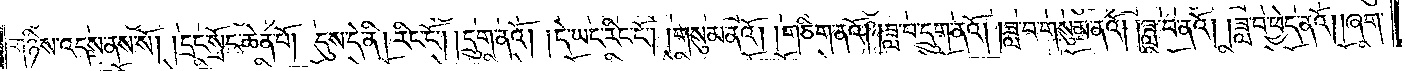གཉིས་འདས་ནས་སོ། །དྲང་སྲོང་ཆེན་པོ། དུས་དེ་ནི། རིང་ངོ༌། །དྲུག་ནའོ། །དེ་ཡང་རིང་ངོ༌། །གསུམ་ནའོ། །གཅིག་ནའོ། །ཟླ་བ་དྲུག་ནའོ། །ཟླ་བ་གསུམ་ནའོ། །ཟླ་བ་ནའོ། །ཟླ་བ་ཕྱེད་ནའོ། །ཞག་
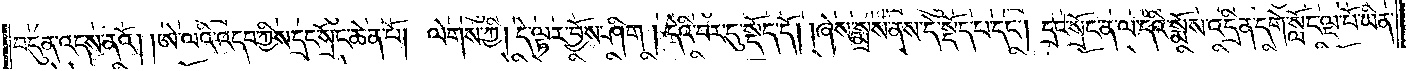བདུན་འདས་ནའོ། །ཨེ་ལའི་འདབ་ཀྱིས་དྲང་སྲོང་ཆེན་པོ། ལེགས་ཀྱི། དེ་ལྟར་བྱོས་ཤིག། དེའི་བར་དུ་སྡོད་དོ། །ཞེས་སྨྲས་ནས་དེ་སྡོད་པ་དང༌། དྲང་སྲོང་ན་ལ་དའི་སྨོས་འདྲིན་དགེ་སློང་ལྔ་པོ་ཡིན་
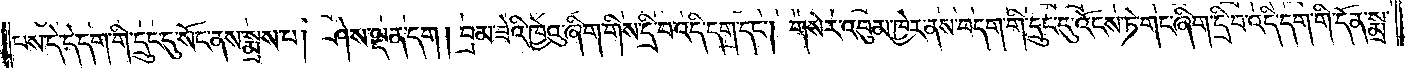པས་དེ་དེ་དག་གི་དྲུང་དུ་སོང་ནས་སྨྲས་པ། ཤེས་ལྡན་དག། བྲམ་ཟེའི་ཁྱེའུ་ཞིག་གིས་དྲི་བ་འདི་དག་དང༌། གསེར་འབུམ་ཁྱེར་ནས་བདག་གི་དྲུང་དུ་འོངས་ཏེ་གང་ཞིག་དྲི་བ་འདི་དག་གི་དོན་སྨྲ་
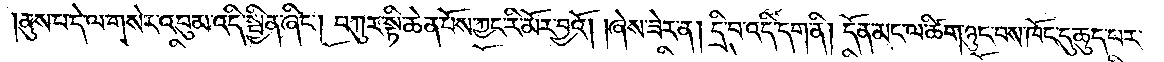།ནུས་པ་དེ་ལ་གསེར་འབུམ་འདི་སྦྱིན་ཞིང༌། བཀུར་སྟི་ཆེན་པོས་ཀྱང་རི་མོར་བྱའོ། །ཞེས་ཟེར་ན། དྲི་བ་འདི་དག་ནི། དོན་མང་ལ་ཚིག་ཉུང་བས་ཁོང་དུ་ཆུད་པར་
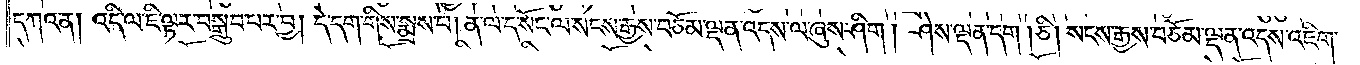དཀའ་ན། འདི་ལ་ཇི་ལྟར་བསྒྲུབ་པར་བྱ། དེ་དག་གིས་སྨྲས་པ། ན་ལ་ད་སོང་ལ་སངས་རྒྱས་བཅོམ་ལྡན་འདས་ལ་ཞུས་ཤིག། ཤེས་ལྡན་དག། ཅི། སངས་རྒྱས་བཅོམ་ལྡན་འདས་འཇིག་
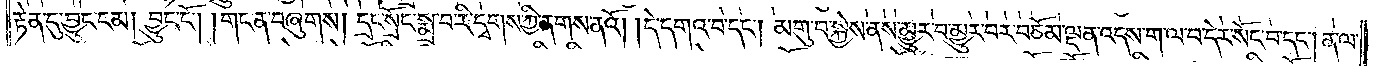རྟེན་དུ་བྱུང་ངམ། བྱུང་ངོ༌། །གང་ན་བཞུགས། དྲང་སྲོང་སྨྲ་བ་རི་དྭགས་ཀྱི་ནགས་ནའོ། །དེ་དགའ་བ་དང༌། མགུ་བ་སྐྱེས་ནས་མྱུར་བ་མྱུར་བར་བཅོམ་ལྡན་འདས་ག་ལ་བ་དེར་སོང་བ་དང༌། ན་ལ་
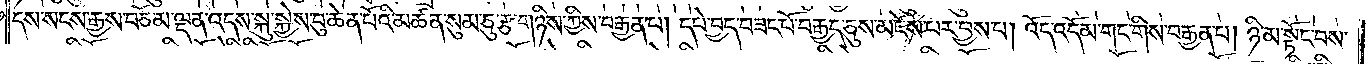དས་སངས་རྒྱས་བཅོམ་ལྡན་འདས་སྐུ་སྐྱེས་བུ་ཆེན་པོའི་མཚན་སུམ་ཅུ་རྩ་གཉིས་ཀྱིས་བརྒྱན་པ། དཔེ་བྱད་བཟང་པོ་བརྒྱད་ཅུས་མཛེས་པར་བྱས་པ། འོད་འདོམ་གང་གིས་བརྒྱན་པ། ཉི་མ་སྟོང་བས་
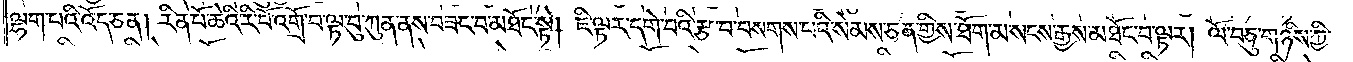ལྷག་པའི་འོད་ཅན། རིན་པོ་ཆེའི་རི་བོ་འགྲོ་བ་ལྟ་བུ་ཀུན་ནས་བཟང་བ་མཐོང་སྟེ། ཇི་ལྟར་དགེ་བའི་རྩ་བ་བསགས་པའི་སེམས་ཅན་གྱིས་ཐོག་མ་སངས་རྒྱས་མཐོང་བ་ལྟར། ལོ་བཅུ་གཉིས་ཀྱི་
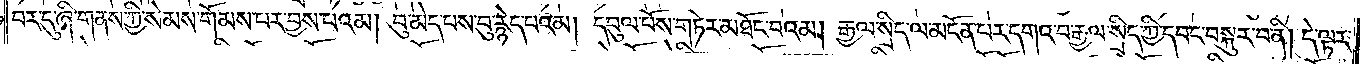བར་དུ་ཞི་གནས་ཀྱི་སེམས་གོམས་པར་བྱས་པའམ། བུ་མེད་པས་བུ་རྙེད་པའམ། དབུལ་པོས་གཏེར་མཐོང་བའམ། རྒྱལ་སྲིད་ལ་མངོན་པར་དགའ་བ་རྒྱལ་སྲིད་ཀྱི་དབང་བསྐུར་བ་ནི། དེ་ལྟར་
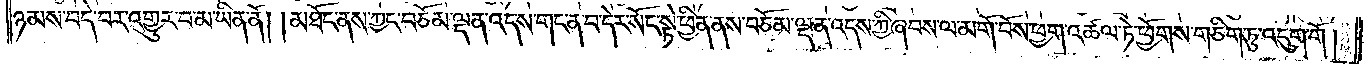ཉམས་བདེ་བར་འགྱུར་བ་མ་ཡིན་ནོ། །མཐོང་ནས་ཀྱང་བཅོམ་ལྡན་འདས་གང་ན་བ་དེར་སོང་སྟེ་ཕྱིན་ནས་བཅོམ་ལྡན་འདས་ཀྱི་ཞབས་ལ་མགོ་བོས་ཕྱག་འཚལ་ཏེ་ཕྱོགས་གཅིག་ཏུ་འདུག་གོ།
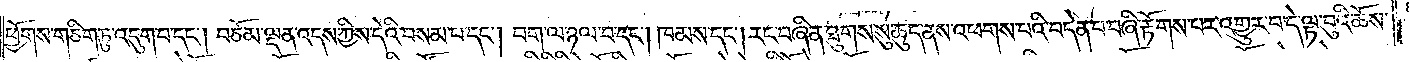ཕྱོགས་གཅིག་ཏུ་འདུག་པ་དང༌། བཅོམ་ལྡན་འདས་ཀྱིས་དེའི་བསམ་པ་དང༌། བག་ལ་ཉལ་བ་དང༌། ཁམས་དང༌། རང་བཞིན་ཐུགས་སུ་ཆུད་ནས་འཕགས་པའི་བདེན་པ་བཞི་རྟོགས་པར་འགྱུར་བ་དེ་ལྟ་བུའི་ཆོས་
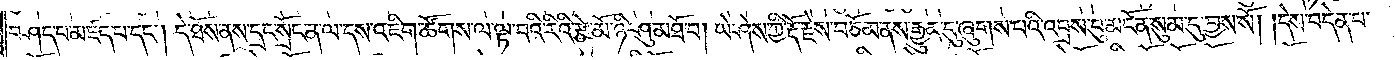བཤད་པ་མཛད་པ་དང༌། དེ་ཐོས་ནས་དྲང་སྲོང་ན་ལ་དས་འཇིག་ཚོགས་ལ་ལྟ་བའི་རིའི་རྩེ་མོ་ཉི་ཤུ་མཐོ་བ། ཡེ་ཤེས་ཀྱི་རྡོ་རྗེས་བཅོམ་ནས་རྒྱུན་དུ་ཞུགས་པའི་འབྲས་བུ་མངོན་སུམ་དུ་བྱས་སོ། །དེས་བདེན་པ་
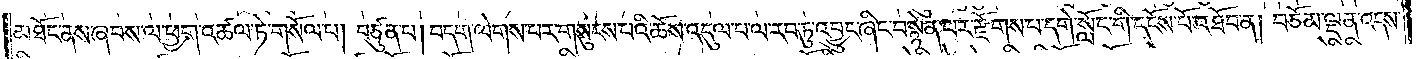མཐོང་ནས་ཞབས་ལ་ཕྱག་འཚལ་ཏེ་གསོལ་པ། བཙུན་པ། བདག་ལེགས་པར་གསུངས་པའི་ཆོས་འདུལ་པ་ལ་རབ་ཏུ་འབྱུང་ཞིང་བསྙེན་པར་རྫོགས་པ་དགེ་སློང་གི་དངོས་པོ་འཐོབ་ན། བཅོམ་ལྡན་འདས་
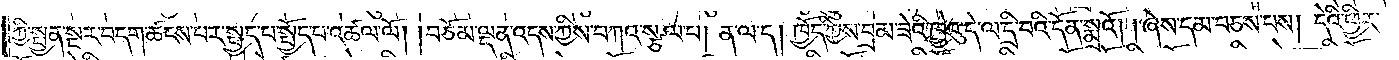ཀྱི་སྤྱན་སྔར་བདག་ཚགས་པར་སྤྱད་པ་སྤྱོད་པ་འཚལ་ལོ། །བཅོམ་ལྡན་འདས་ཀྱིས་བཀའ་སྩལ་པ། ན་ལ་ད། ཁྱོད་ཀྱིས་བྲམ་ཟེའི་ཁྱེའུ་དེ་ལ་དྲི་བའི་དོན་སྨྲའོ། །ཞེས་དམ་བཅས་པས། དེའི་ཕྱིར་
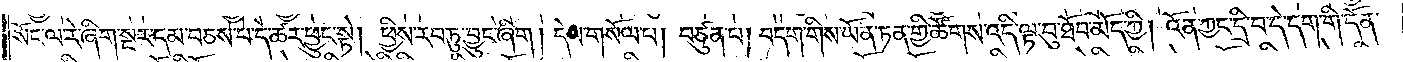སོང་ལ་རེ་ཞིག་སྔར་དམ་བཅས་པ་དེ་ཚར་ཕྱུང་སྟེ། ཕྱིས་རབ་ཏུ་བྱུང་ཞིག། དེས་གསོལ་པ། བཙུན་པ། བདག་གིས་ཡོན་ཏན་གྱི་ཚོགས་འདི་ལྟ་བུ་ཐོབ་མོད་ཀྱི། འོན་ཀྱང་དྲི་བ་དེ་དག་གི་དོན་
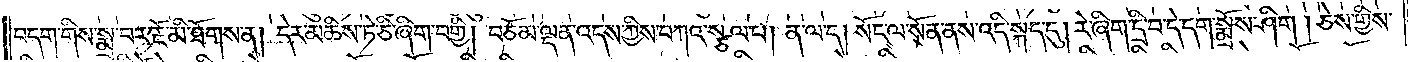བདག་གིས་སྨྲ་བར་རྔོ་མི་ཐོགས་ན། དེར་མཆིས་ཏེ་ཅི་ཞིག་བགྱི། བཅོམ་ལྡན་འདས་ཀྱིས་བཀའ་སྩལ་པ། ན་ལ་ད། སོང་ལ་སོན་ནས་འདི་སྐད་དུ། རེ་ཞིག་དྲི་བ་དེ་དག་སྨྲོས་ཤིག། ཅེས་གྱིས་
